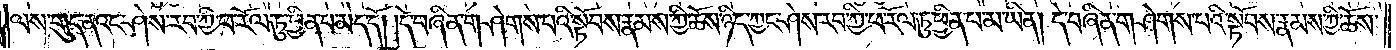ལས་གུད་ནའང་ཤེས་རབ་ཀྱི་ཕ་རོལ་ཏུ་ཕྱིན་པ་མེད་དོ། །དེ་བཞིན་གཤེགས་པའི་སྟོབས་རྣམས་ཀྱི་ཆོས་ཉིད་ཀྱང་ཤེས་རབ་ཀྱི་ཕ་རོལ་ཏུ་ཕྱིན་པ་མ་ཡིན། དེ་བཞིན་གཤེགས་པའི་སྟོབས་རྣམས་ཀྱི་ཆོས་
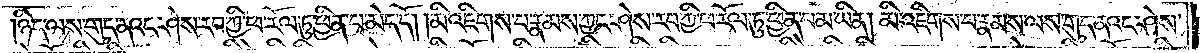ཉིད་ལས་གུད་ནའང་ཤེས་རབ་ཀྱི་ཕ་རོལ་ཏུ་ཕྱིན་པ་མེད་དོ། །མི་འཇིགས་པ་རྣམས་ཀྱང་ཤེས་རབ་ཀྱི་ཕ་རོལ་ཏུ་ཕྱིན་པ་མ་ཡིན། མི་འཇིགས་པ་རྣམས་ལས་གུད་ནའང་ཤེས་
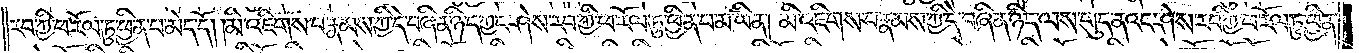རབ་ཀྱི་ཕ་རོལ་ཏུ་ཕྱིན་པ་མེད་དོ། །མི་འཇིགས་པ་རྣམས་ཀྱི་དེ་བཞིན་ཉིད་ཀྱང་ཤེས་རབ་ཀྱི་ཕ་རོལ་ཏུ་ཕྱིན་པ་མ་ཡིན། མི་འཇིགས་པ་རྣམས་ཀྱི་དེ་བཞིན་ཉིད་ལས་གུད་ནའང་ཤེས་རབ་ཀྱི་ཕ་རོལ་ཏུ་ཕྱིན་
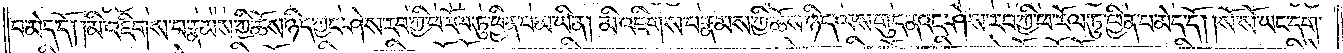པ་མེད་དོ། །མི་འཇིགས་པ་རྣམས་ཀྱི་ཆོས་ཉིད་ཀྱང་ཤེས་རབ་ཀྱི་ཕ་རོལ་ཏུ་ཕྱིན་པ་མ་ཡིན། མི་འཇིགས་པ་རྣམས་ཀྱི་ཆོས་ཉིད་ལས་གུད་ནའང་ཤེས་རབ་ཀྱི་ཕ་རོལ་ཏུ་ཕྱིན་པ་མེད་དོ། །སོ་སོ་ཡང་དག་
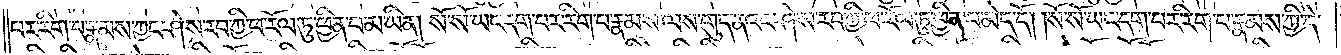པར་རིག་པ་རྣམས་ཀྱང་ཤེས་རབ་ཀྱི་ཕ་རོལ་ཏུ་ཕྱིན་པ་མ་ཡིན། སོ་སོ་ཡང་དག་པར་རིག་པ་རྣམས་ལས་གུད་ནའང་ཤེས་རབ་ཀྱི་ཕ་རོལ་ཏུ་ཕྱིན་པ་མེད་དོ། །སོ་སོ་ཡང་དག་པར་རིག་པ་རྣམས་ཀྱི་དེ་
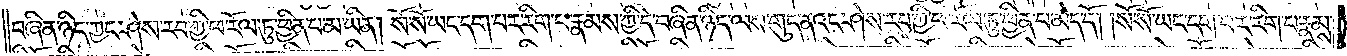བཞིན་ཉིད་ཀྱང་ཤེས་རབ་ཀྱི་ཕ་རོལ་ཏུ་ཕྱིན་པ་མ་ཡིན། སོ་སོ་ཡང་དག་པར་རིག་པ་རྣམས་ཀྱི་དེ་བཞིན་ཉིད་ལས་གུད་ནའང་ཤེས་རབ་ཀྱི་ཕ་རོལ་ཏུ་ཕྱིན་པ་མེད་དོ། །སོ་སོ་ཡང་དག་པར་རིག་པ་རྣམས་
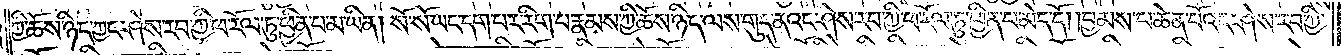ཀྱི་ཆོས་ཉིད་ཀྱང་ཤེས་རབ་ཀྱི་ཕ་རོལ་ཏུ་ཕྱིན་པ་མ་ཡིན། སོ་སོ་ཡང་དག་པར་རིག་པ་རྣམས་ཀྱི་ཆོས་ཉིད་ལས་གུད་ནའང་ཤེས་རབ་ཀྱི་ཕ་རོལ་ཏུ་ཕྱིན་པ་མེད་དོ། །བྱམས་པ་ཆེན་པོའང་ཤེས་རབ་ཀྱི་
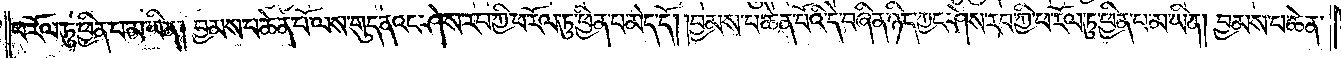ཕ་རོལ་ཏུ་ཕྱིན་པ་མ་ཡིན། བྱམས་པ་ཆེན་པོ་ལས་གུད་ནའང་ཤེས་རབ་ཀྱི་ཕ་རོལ་ཏུ་ཕྱིན་པ་མེད་དོ། །བྱམས་པ་ཆེན་པོའི་དེ་བཞིན་ཉིད་ཀྱང་ཤེས་རབ་ཀྱི་ཕ་རོལ་ཏུ་ཕྱིན་པ་མ་ཡིན། བྱམས་པ་ཆེན་
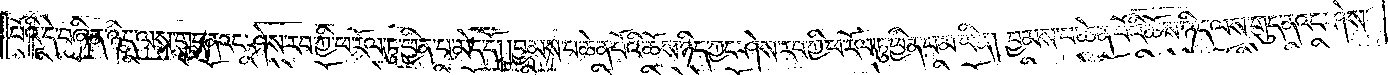པོའི་དེ་བཞིན་ཉིད་ལས་གུད་ནའང་ཤེས་རབ་ཀྱི་ཕ་རོལ་ཏུ་ཕྱིན་པ་མེད་དོ། །བྱམས་པ་ཆེན་པོའི་ཆོས་ཉིད་ཀྱང་ཤེས་རབ་ཀྱི་ཕ་རོལ་ཏུ་ཕྱིན་པ་མ་ཡིན། བྱམས་པ་ཆེན་པོའི་ཆོས་ཉིད་ལས་གུད་ནའང་ཤེས་
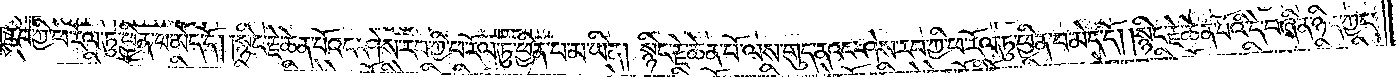རབ་ཀྱི་ཕ་རོལ་ཏུ་ཕྱིན་པ་མེད་དོ། །སྙིང་རྗེ་ཆེན་པོའང་ཤེས་རབ་ཀྱི་ཕ་རོལ་ཏུ་ཕྱིན་པ་མ་ཡིན། སྙིང་རྗེ་ཆེན་པོ་ལས་གུད་ནའང་ཤེས་རབ་ཀྱི་ཕ་རོལ་ཏུ་ཕྱིན་པ་མེད་དོ། །སྙིང་རྗེ་ཆེན་པོའི་དེ་བཞིན་ཉིད་ཀྱང་
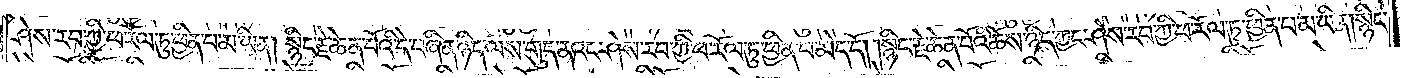ཤེས་རབ་ཀྱི་ཕ་རོལ་ཏུ་ཕྱིན་པ་མ་ཡིན། སྙིང་རྗེ་ཆེན་པོའི་དེ་བཞིན་ཉིད་ལས་གུད་ནའང་ཤེས་རབ་ཀྱི་ཕ་རོལ་ཏུ་ཕྱིན་པ་མེད་དོ། །སྙིང་རྗེ་ཆེན་པོའི་ཆོས་ཉིད་ཀྱང་ཤེས་རབ་ཀྱི་ཕ་རོལ་ཏུ་ཕྱིན་པ་མ་ཡིན། སྙིང་
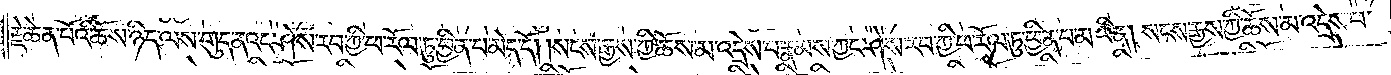རྗེ་ཆེན་པོའི་ཆོས་ཉིད་ལས་གུད་ནའང་ཤེས་རབ་ཀྱི་ཕ་རོལ་ཏུ་ཕྱིན་པ་མེད་དོ། །སངས་རྒྱས་ཀྱི་ཆོས་མ་འདྲེས་པ་རྣམས་ཀྱང་ཤེས་རབ་ཀྱི་ཕ་རོལ་ཏུ་ཕྱིན་པ་མ་ཡིན། སངས་རྒྱས་ཀྱི་ཆོས་མ་འདྲེས་པ་
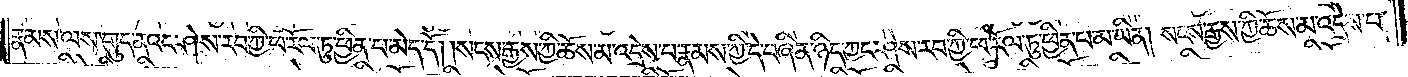རྣམས་ལས་གུད་ནའང་ཤེས་རབ་ཀྱི་ཕ་རོལ་ཏུ་ཕྱིན་པ་མེད་དོ། །སངས་རྒྱས་ཀྱི་ཆོས་མ་འདྲེས་པ་རྣམས་ཀྱི་དེ་བཞིན་ཉིད་ཀྱང་ཤེས་རབ་ཀྱི་ཕ་རོལ་ཏུ་ཕྱིན་པ་མ་ཡིན། སངས་རྒྱས་ཀྱི་ཆོས་མ་འདྲེས་པ་
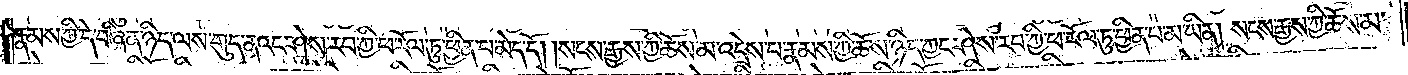རྣམས་ཀྱི་དེ་བཞིན་ཉིད་ལས་གུད་ནའང་ཤེས་རབ་ཀྱི་ཕ་རོལ་ཏུ་ཕྱིན་པ་མེད་དོ། །སངས་རྒྱས་ཀྱི་ཆོས་མ་འདྲེས་པ་རྣམས་ཀྱི་ཆོས་ཉིད་ཀྱང་ཤེས་རབ་ཀྱི་ཕ་རོལ་ཏུ་ཕྱིན་པ་མ་ཡིན། སངས་རྒྱས་ཀྱི་ཆོས་མ་
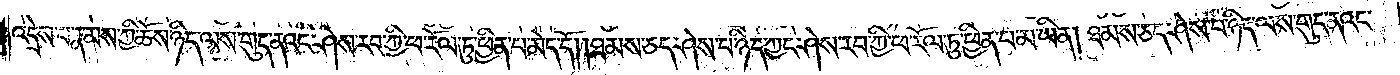འདྲེས་པ་རྣམས་ཀྱི་ཆོས་ཉིད་ལས་གུད་ནའང་ཤེས་རབ་ཀྱི་ཕ་རོལ་ཏུ་ཕྱིན་པ་མེད་དོ། །ཐམས་ཅད་ཤེས་པ་ཉིད་ཀྱང་ཤེས་རབ་ཀྱི་ཕ་རོལ་ཏུ་ཕྱིན་པ་མ་ཡིན། ཐམས་ཅད་ཤེས་པ་ཉིད་ལས་གུད་ནའང་
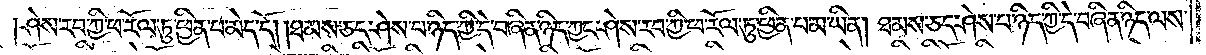ཤེས་རབ་ཀྱི་ཕ་རོལ་ཏུ་ཕྱིན་པ་མེད་དོ། །ཐམས་ཅད་ཤེས་པ་ཉིད་ཀྱི་དེ་བཞིན་ཉིད་ཀྱང་ཤེས་རབ་ཀྱི་ཕ་རོལ་ཏུ་ཕྱིན་པ་མ་ཡིན། ཐམས་ཅད་ཤེས་པ་ཉིད་ཀྱི་དེ་བཞིན་ཉིད་ལས་
